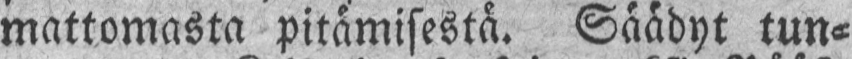mattomasta pitämisestä. Säädyt tun-
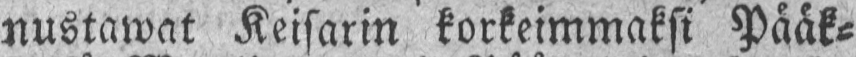nustawat Keisarin korkeimmaksi Pääk-
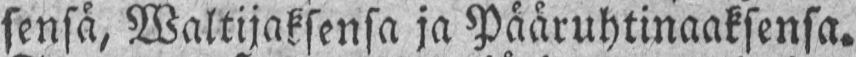sensä, Waltijaksensa ja Pääruhtinaaksensa.
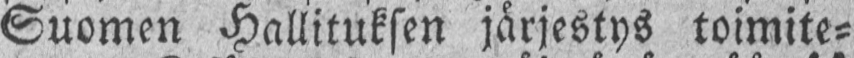Suomen Hallituksen järjestys toimite-
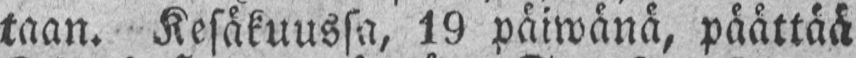taan. Kesäkuussa, 19 päiwänä, päättää
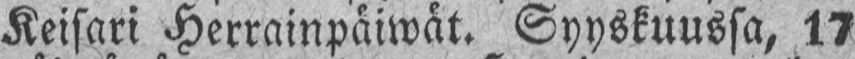Keisari Herrainpäiwät. Syyskuussa, 17
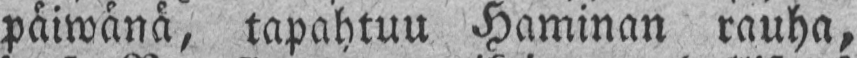päiwänä, tapahtuu Haminan rauha,
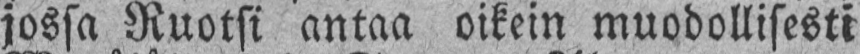jossa Ruotsi antaa oikein muodollisesti
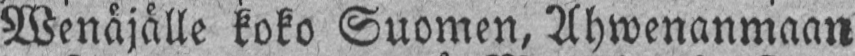Wenäjälle koko Suomen, Ahwenanmaan
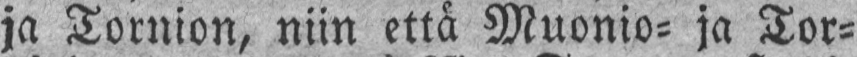ja Tornion, niin että Muonio- ja Tor-
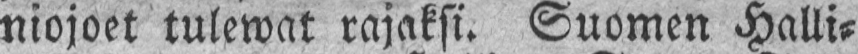niojoet tulewat rajaksi. Suomen Halli-
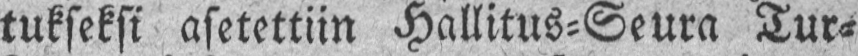tukseksi asetettiin Hallitus-Seura Tur-
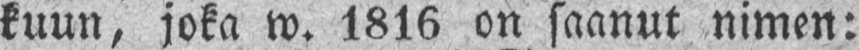kuun, joka w. 1816 on saanut nimen:
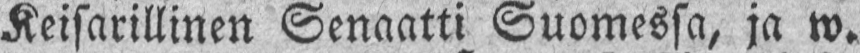Keisarillinen Senaatti Suomessa, ja w.
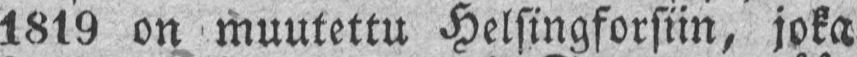1819 on muutettu Helsingforsiin, joka
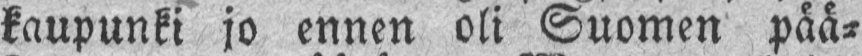kaupunki jo ennen oli Suomen pää-
